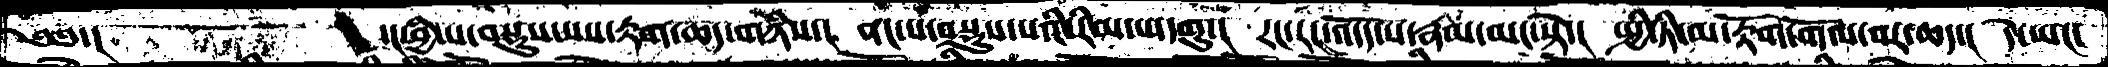༄༅་།         ་།ཕྱི་པ་བསྡུས་པས་རྟག་ཆད་གཉིས་།  ནང་པ་བསྡུས་པའི་རིམ་པ་དགུ་།  རང་རང་འདོད་པ་རྣམ་མང་སྟེ་།  སྤྱི་ཏི་མ་རྟོག་གོལ་བར་ཆད་།  དེ་ཡང་
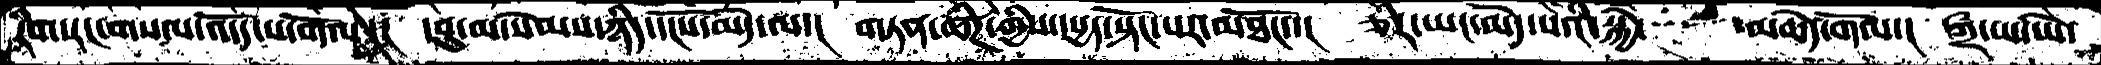རིག་རང་གསལ་འོདད་པ་གོལ།།།  དབུ་མ་སེམས་ཉིད་དངོས་མེད་ལ་།  གཏན་ཚིཌ་གྱིས་དཔྱད་སྟོང་པར་མཐོང་་།  ཅིར་ཡང་མེད་པའི་སྐྱེ་  མཆེད་གོལ་།   ཀྲྀ་ཡ་ཡེ་
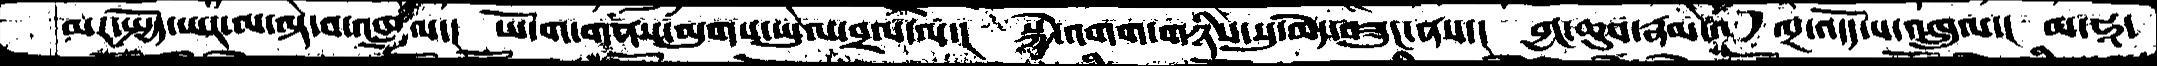མར་སྤྱོད་ཡར་ལ་ལྟ་བ་འཁྲུལ་།  ཡོ་ག་གནས་ལུགས་ཡུལ་བྲལ་ལ་།  སྐྱེ་འགག་གཉིས་སུ་མེད་བཟུང་ནས་།  བྱང་ཆུབ་རྣམ་    ལྔ་འདོད་པ་འཁྲུལ་།  མ་ཧཱ་
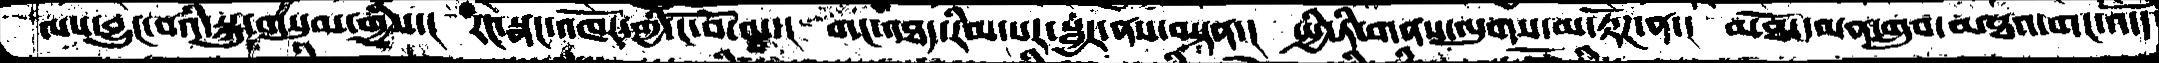ལས་བྱུང་བའི་སྐུ་གསུམ་གྱིས་།  རང་སྣང་འཁོར་གྱི་ངོ་བོ་ལ་།  གང་འཐད་རིམ་པར་སྦྱར་ནས་བསྟན་།  སྤྱི་ཏི་གནས་ལུགས་མ་རྟོཌ་ན་།  མཐོང་དམན་གྲུབ་མཐའ་གང་འདོད་
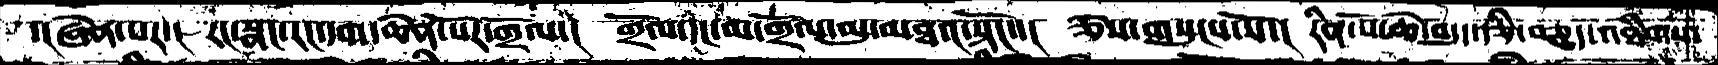་།ཞེན་པར་།  རང་སྣང་རང་དག་ཆེན་པོར་གྲོལ་།  གྲོལ་དང་མ་གྲོལ་མུ་མཐའ་སྟོང་་།  ཅེས་གསུངས་སོ་།  རིན་པོ་ཆེ་བདུད་རྩི་བཅུད་འཐིགས་
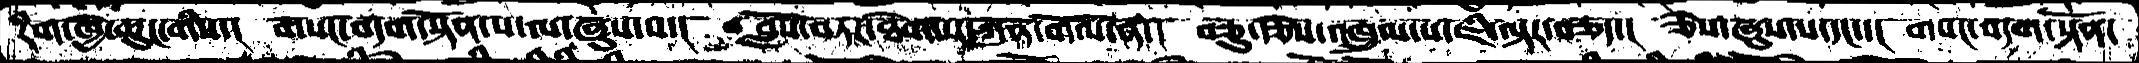རིག་ཁྱེ་ཆུང་གིས་།  གསང་བདག་སྟོན་པ་ལ་ཞུས་བ་།  བློས་བཏང་ཐེག་པ་ཀུན་གོལ་ན་།  བཅུ་རྩེས་འཁྲུལ་པ་ཇི་ལྟར་བཅད་།  ཅེས་ཞུས་པ་དང་་།  གསང་བདག་སྟོན་
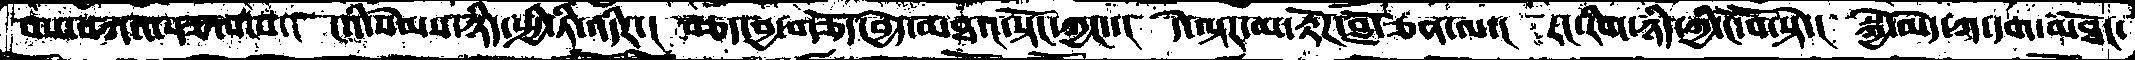བས་བཀའ་སྩལ་བ་།  ངའི་སེམས་ཉིད་སྤྱི་ཏི་འདིར་།  བཅད་བྱ་གཅོད་བྱེད་མཐའ་སྟོང་ཀྱང་་།  དེ་ལྟར་མ་རྟོཌ་བློ་ཅན་ལ་།  རང་རིག་ཉིད་ཀྱི་ངོ་བོ་སྟེ་།  སྐྱེ་མེད་ཀ་དག་མཐོང་
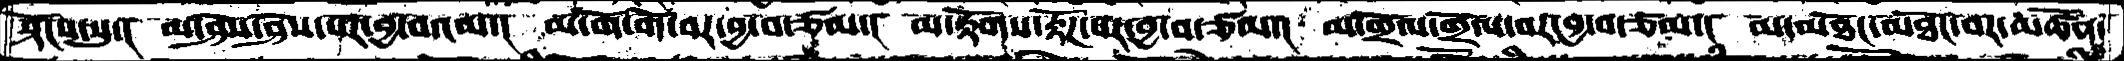སྟོངས་སུ་།  མ་ཤེས་ཤེས་པར་བྱ་བའམ་།  མ་གོ་གོ་བར་བྱ་བ་ཙམ་།  མ་རྟོགས་རྟོཌ་པར་བྱ་བ་ཙམ་།  མ་གྲོལ་གྲོལ་བར་བྱ་བ་ཙམ་།  མ་མཐོང་མཐོང་བར་མཚོན་
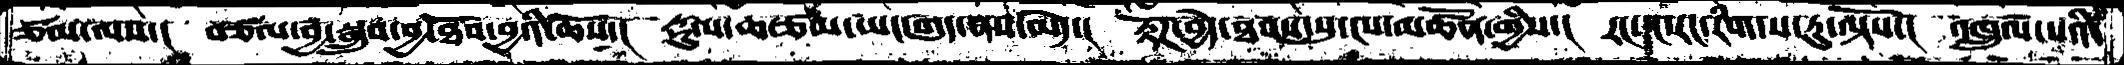ཙམ་ལས་།  བཙལ་བྱ་སྒྲུབ་བྱ་ཐོབ་བྱའི་ཆོས་།  རྡུལ་ཆ་ཙམ་ཡང་གུད་ནས་མེད་།  རྟོཌ་བྱེད་ཐབས་སུ་ངས་མཚོན་གྱིས་།  རང་དང་རང་རིག་ས་རུ་ལྟོས་།  འཁྲུལ་པའི་
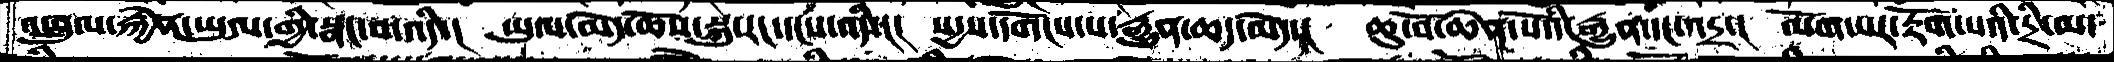འཁྲུལ་རྐྱེན་ཡུལ་གྱི་སྣང་བ་འདི་།  ཡུལ་མེད་ཆོས་སྐུ་རང་དངས་འདི་།  སདྱས་དགོངས་པ་རྒྱུན་ཆད་མེད་།  ཆུ་བོ་ཆེན་པོའི་རྒྱུན་དང་འདྲ་།  ལོག་པར་རྟོག་པའི་དྲི་མ་
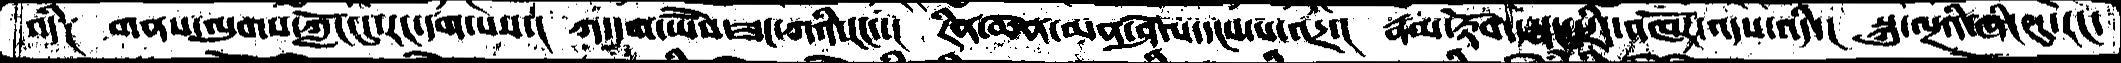འདི༑  གནས་ལུགས་ཀློང་དུ་རང་དག་པས་།  ཀ་དག་ཡཻས་ཟང་ཀའི་ངང་་།  རིན་ཆེན་མན་ཤེལ་དངས་པ་འདྲ་།  རྣམ་རྟོག་སྣང་སྲིད་འཁོར་འདས་འདི་།  སྐུ་ལྔའི་ཞིང་དུ་རང་
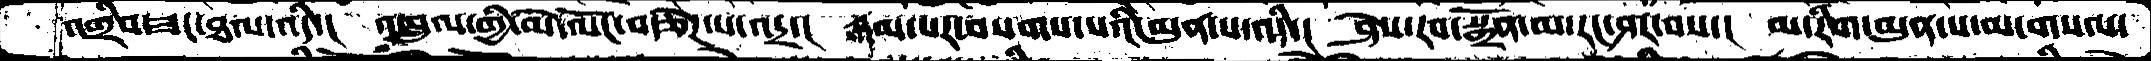འགྲིབ་ཟང་ཐལ་འདི་།  འཁྲུལ་གྱི་མེ་ལོང་བརྩེཌ་པ་འདྲ་།  རྣམ་པར་བསགས་པའི་མུན་པ་འདི་།  ཤེས་རབ་སྒྲོན་མ་རང་ཤར་བས་།  མ་རིག་མུན་པ་མ་གསལ་
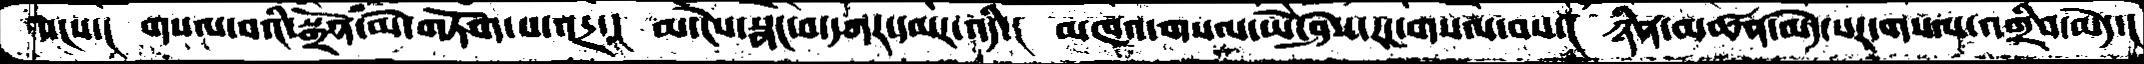སངས་།  གསལ་བའི་སྒྲོན་མེད་གཏོག་པ་འདྲ་།  མ་ངེས་སྣང་བ་དཀར་དམར་འདི་།  མཁའ་གསལ་ཡེ་ཤེས་རང་གསལ་བས་།  ཉིན་མཚན་མེད་པར་གསལ་འགྲིབ་མེད་།
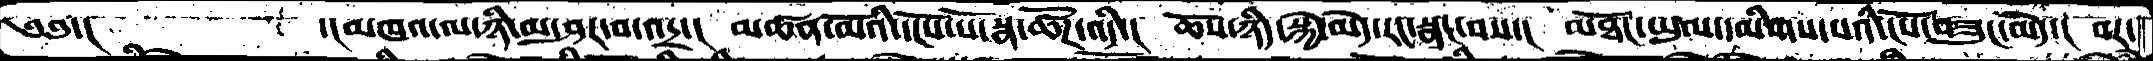༄༅་།       ་།མཁའ་ལ་ཉི་མ་ཤར་བ་འདྲ་།  མཚན་མོའི་དངོས་པོ་སྣ་ཚོཌ་འདི་།  ཆོས་ཉིད་སྐྱེ་མེད་རང་སྣང་བས་།  མཐོང་ཡུལ་དམིགས་པའི་ངོས་བཟུང་མེད་།  བར་
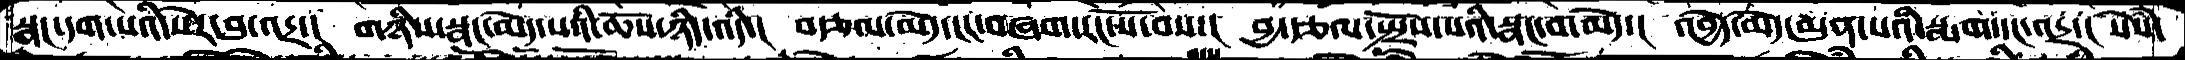སྣང་དག་པའི་སེར་བུ་འདྲ་།  གཉིས་སྣང་མེད་པའི་ཆོས་ཉིད་འདི་།  བརྩལ་མེད་ངང་བཞག་རང་སོ་བས་།  བྱ་རྩལ་སྤྲོས་པའི་སྣང་བ་མེད།  འབྱེད་མེད་མུན་པའི་སྨག་དང་འདྲ་།  སེཾས་
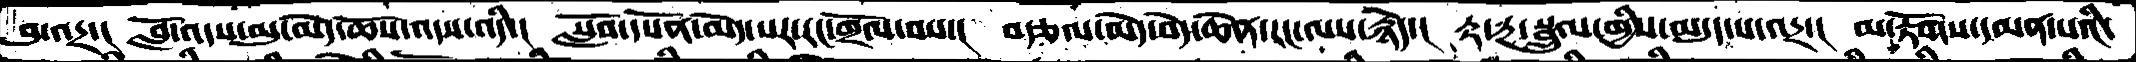བུ་འདྲ་།  བློ་འདས་མུ་མེད་ཆོས་འདས་འདི་།  སློབ་དཔོན་མེད་པར་རང་གྲོལ་བས་།  བརྩལ་མེད་བདེ་ཆེན་རང་ལས་རྙེད་།   རྟ་རྔ་སྦྲུལ་གྱིས་མདུད་པ་འདྲ་།  མ་རྟོགས་དམན་པའི་
